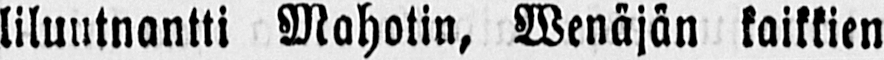liluutnantti Mahotin, Wenäjän kaikkien
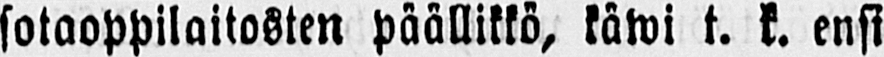sotaoppilaitosten päällikkö, käwi t. k. ensi
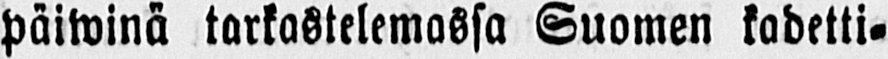päiwinä tarkastelemassa Suomen kadetti-
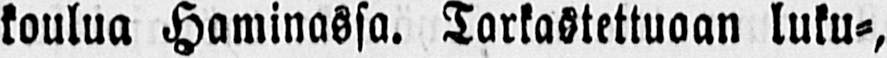koulua Haminassa. Tarkastettuaan luku-,
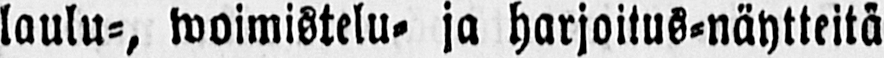laulu-, woimistelu- ja harjoitus-näytteitä
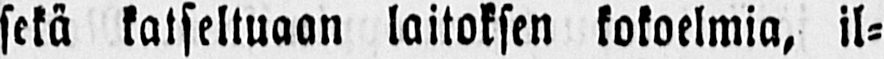sekä katseltuaan laitoksen kokoelmia, il-
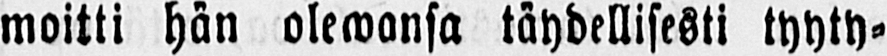moitti hän olewansa täydellisesti tyyty-
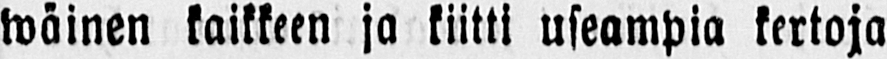wäinen kaikkeen ja kiitti useampia kertoja
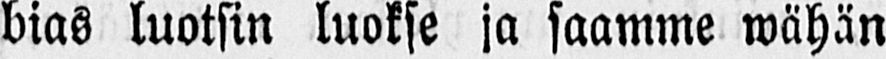bias luotsin luokse ja saamme wähän
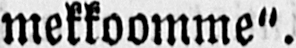mekkoomme".
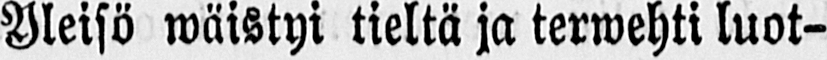Yleisö wäistyi tieltä ja terwehti luot-
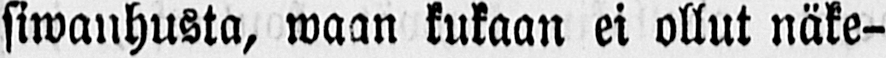siwanhusta, waan kukaan ei ollut näke-
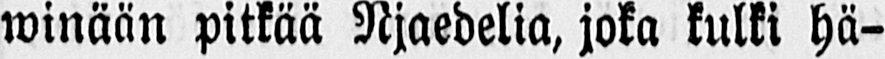winään pitkää Njaedelia, joka kulki hä-
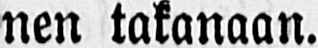nen takanaan.
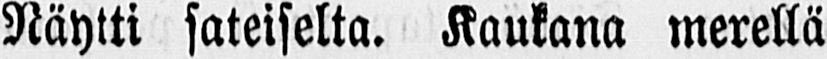Näytti sateiselta. Kaukana merellä
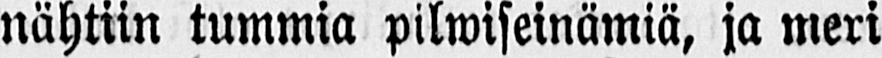nähtiin tummia pilwiseinämiä, ja meri
